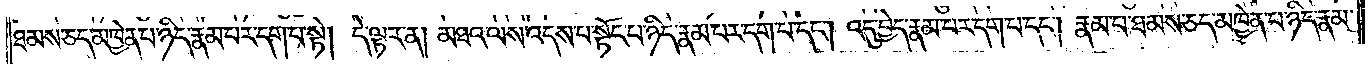ཐམས་ཅད་མཁྱེན་པ་ཉིད་རྣམ་པར་དག་པ་སྟེ། དེ་ལྟར་ན། མཐའ་ལས་འདས་པ་སྟོང་པ་ཉིད་རྣམ་པར་དག་པ་དང༌། འདུ་བྱེད་རྣམ་པར་དག་པ་དང༌། རྣམ་པ་ཐམས་ཅད་མཁྱེན་པ་ཉིད་རྣམ་
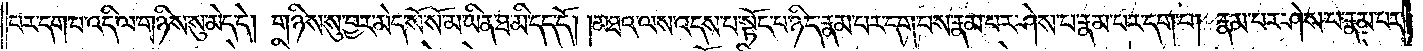པར་དག་པ་འདི་ལ་གཉིས་སུ་མེད་དེ། གཉིས་སུ་བྱར་མེད་སོ་སོ་མ་ཡིན་ཐ་མི་དད་དོ། །མཐའ་ལས་འདས་པ་སྟོང་པ་ཉིད་རྣམ་པར་དག་པས་རྣམ་པར་ཤེས་པ་རྣམ་པར་དག་པ། རྣམ་པར་ཤེས་པ་རྣམ་པར་
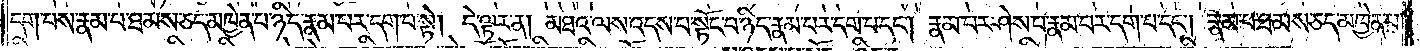དག་པས་རྣམ་པ་ཐམས་ཅད་མཁྱེན་པ་ཉིད་རྣམ་པར་དག་པ་སྟེ། དེ་ལྟར་ན། མཐའ་ལས་འདས་པ་སྟོང་པ་ཉིད་རྣམ་པར་དག་པ་དང༌། རྣམ་པར་ཤེས་པ་རྣམ་པར་དག་པ་དང༌། རྣམ་པ་ཐམས་ཅད་མཁྱེན་པ་
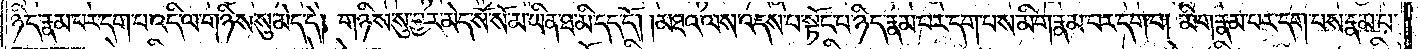ཉིད་རྣམ་པར་དག་པ་འདི་ལ་གཉིས་སུ་མེད་དེ། གཉིས་སུ་བྱར་མེད་སོ་སོ་མ་ཡིན་ཐ་མི་དད་དོ། །མཐའ་ལས་འདས་པ་སྟོང་པ་ཉིད་རྣམ་པར་དག་པས་མིག་རྣམ་པར་དག་པ། མིག་རྣམ་པར་དག་པས་རྣམ་པ་
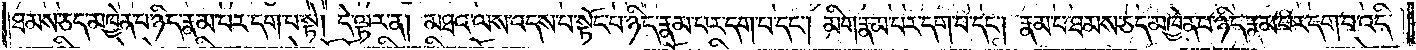ཐམས་ཅད་མཁྱེན་པ་ཉིད་རྣམ་པར་དག་པ་སྟེ། དེ་ལྟར་ན། མཐའ་ལས་འདས་པ་སྟོང་པ་ཉིད་རྣམ་པར་དག་པ་དང༌། མིག་རྣམ་པར་དག་པ་དང༌། རྣམ་པ་ཐམས་ཅད་མཁྱེན་པ་ཉིད་རྣམ་པར་དག་པ་འདི་
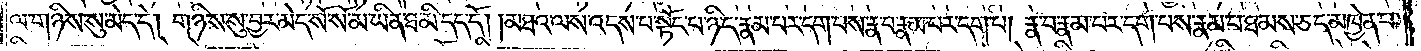ལ་གཉིས་སུ་མེད་དེ། གཉིས་སུ་བྱར་མེད་སོ་སོ་མ་ཡིན་ཐ་མི་དད་དོ། །མཐའ་ལས་འདས་པ་སྟོང་པ་ཉིད་རྣམ་པར་དག་པས་རྣ་བ་རྣམ་པར་དག་པ། རྣ་བ་རྣམ་པར་དག་པས་རྣམ་པ་ཐམས་ཅད་མཁྱེན་པ་
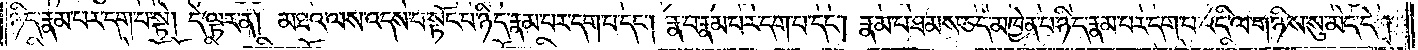ཉིད་རྣམ་པར་དག་པ་སྟེ། དེ་ལྟར་ན། མཐའ་ལས་འདས་པ་སྟོང་པ་ཉིད་རྣམ་པར་དག་པ་དང༌། རྣ་བ་རྣམ་པར་དག་པ་དང༌། རྣམ་པ་ཐམས་ཅད་མཁྱེན་པ་ཉིད་རྣམ་པར་དག་པ་འདི་ལ་གཉིས་སུ་མེད་དེ།
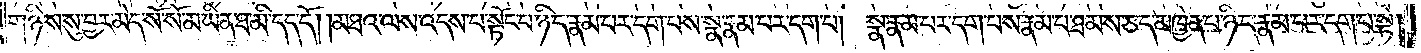གཉིས་སུ་བྱར་མེད་སོ་སོ་མ་ཡིན་ཐ་མི་དད་དོ། །མཐའ་ལས་འདས་པ་སྟོང་པ་ཉིད་རྣམ་པར་དག་པས་སྣ་རྣམ་པར་དག་པ། སྣ་རྣམ་པར་དག་པས་རྣམ་པ་ཐམས་ཅད་མཁྱེན་པ་ཉིད་རྣམ་པར་དག་པ་སྟེ།
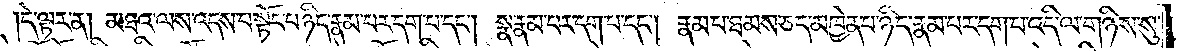དེ་ལྟར་ན། མཐའ་ལས་འདས་པ་སྟོང་པ་ཉིད་རྣམ་པར་དག་པ་དང༌། སྣ་རྣམ་པར་དག་པ་དང༌། རྣམ་པ་ཐམས་ཅད་མཁྱེན་པ་ཉིད་རྣམ་པར་དག་པ་འདི་ལ་གཉིས་སུ་
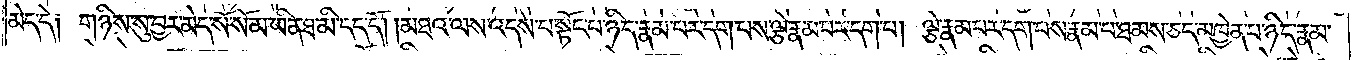མེད་དེ༑ གཉིས་སུ་བྱར་མེད་སོ་སོ་མ་ཡིན་ཐ་མི་དད་དོ། །མཐའ་ལས་འདས་པ་སྟོང་པ་ཉིད་རྣམ་པར་དག་པས་ལྕེ་རྣམ་པར་དག་པ། ལྕེ་རྣམ་པར་དག་པས་རྣམ་པ་ཐམས་ཅད་མཁྱེན་པ་ཉིད་རྣམ་
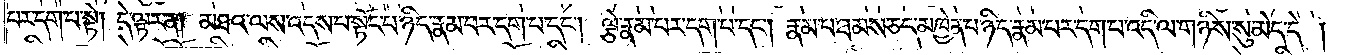པར་དག་པ་སྟེ། དེ་ལྟར་ན། མཐའ་ལས་འདས་པ་སྟོང་པ་ཉིད་རྣམ་པར་དག་པ་དང༌། ལྕེ་རྣམ་པར་དག་པ་དང༌། རྣམ་པ་ཐམས་ཅད་མཁྱེན་པ་ཉིད་རྣམ་པར་དག་པ་འདི་ལ་གཉིས་སུ་མེད་དེ།
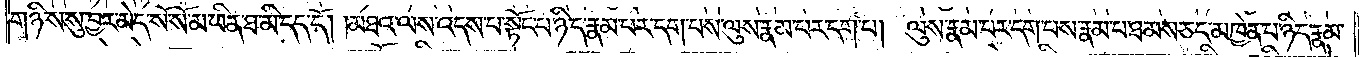གཉིས་སུ་བྱར་མེད་སོ་སོ་མ་ཡིན་ཐ་མི་དད་དོ། །མཐའ་ལས་འདས་པ་སྟོང་པ་ཉིད་རྣམ་པར་དག་པས་ལུས་རྣམ་པར་དག་པ། ལུས་རྣམ་པར་དག་པས་རྣམ་པ་ཐམས་ཅད་མཁྱེན་པ་ཉིད་རྣམ་
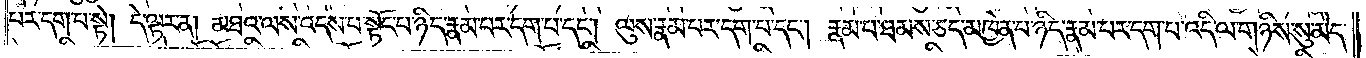པར་དག་པ་སྟེ། དེ་ལྟར་ན། མཐའ་ལས་འདས་པ་སྟོང་པ་ཉིད་རྣམ་པར་དག་པ་དང༌། ལུས་རྣམ་པར་དག་པ་དང༌། རྣམ་པ་ཐམས་ཅད་མཁྱེན་པ་ཉིད་རྣམ་པར་དག་པ་འདི་ལ་གཉིས་སུ་མེད་
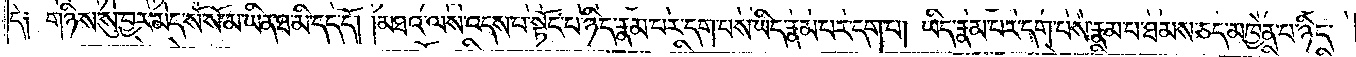དེ༑ གཉིས་སུ་བྱར་མེད་སོ་སོ་མ་ཡིན་ཐ་མི་དད་དོ། །མཐའ་ལས་འདས་པ་སྟོང་པ་ཉིད་རྣམ་པར་དག་པས་ཡིད་རྣམ་པར་དག་པ། ཡིད་རྣམ་པར་དག་པས་རྣམ་པ་ཐམས་ཅད་མཁྱེན་པ་ཉིད་
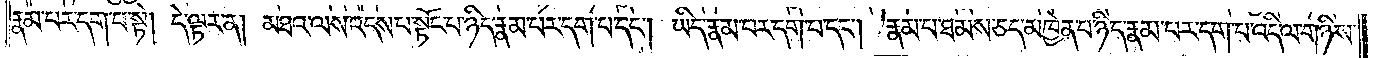རྣམ་པར་དག་པ་སྟེ། དེ་ལྟར་ན། མཐའ་ལས་འདས་པ་སྟོང་པ་ཉིད་རྣམ་པར་དག་པ་དང༌། ཡིད་རྣམ་པར་དག་པ་དང༌། རྣམ་པ་ཐམས་ཅད་མཁྱེན་པ་ཉིད་རྣམ་པར་དག་པ་འདི་ལ་གཉིས་
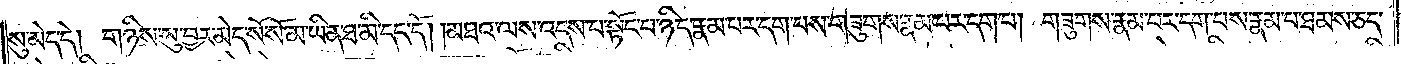སུ་མེད་དེ། གཉིས་སུ་བྱར་མེད་སོ་སོ་མ་ཡིན་ཐ་མི་དད་དོ། །མཐའ་ལས་འདས་པ་སྟོང་པ་ཉིད་རྣམ་པར་དག་པས་གཟུགས་རྣམ་པར་དག་པ། གཟུགས་རྣམ་པར་དག་པས་རྣམ་པ་ཐམས་ཅད་
